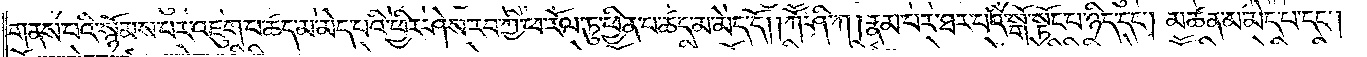གནས་པའི་སྙོམས་པར་འཇུག་པ་ཚད་མ་མེད་པའི་ཕྱིར་ཤེས་རབ་ཀྱི་ཕ་རོལ་ཏུ་ཕྱིན་པ་ཚད་མ་མེད་དོ། །ཀཽ་ཤི་ཀ །རྣམ་པར་ཐར་པའི་སྒོ་སྟོང་པ་ཉིད་དང༌། མཚན་མ་མེད་པ་དང༌།
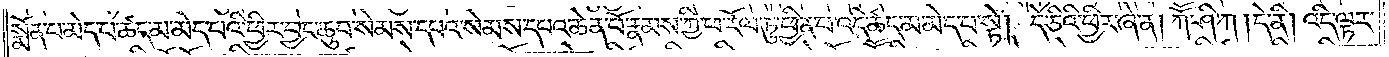སྨོན་པ་མེད་པ་ཚད་མ་མེད་པའི་ཕྱིར་བྱང་ཆུབ་སེམས་དཔའ་སེམས་དཔའ་ཆེན་པོ་རྣམས་ཀྱི་ཕ་རོལ་ཏུ་ཕྱིན་པ་འདི་ཚད་མ་མེད་པ་སྟེ། དེ་ཅིའི་ཕྱིར་ཞེ་ན། ཀཽ་ཤི་ཀ །དེ་ནི། འདི་ལྟར་
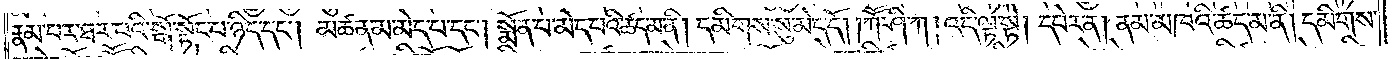རྣམ་པར་ཐར་པའི་སྒོ་སྟོང་པ་ཉིད་དང༌། མཚན་མ་མེད་པ་དང༌། སྨོན་པ་མེད་པའི་ཚད་མ་ནི། དམིགས་སུ་མེད་དོ། །ཀཽ་ཤི་ཀ །འདི་ལྟ་སྟེ། དཔེར་ན། ནམ་མཁའི་ཚད་མ་ནི། དམིགས་
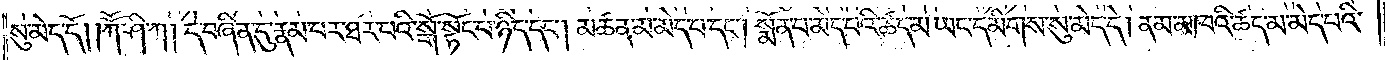སུ་མེད་དོ། །ཀཽ་ཤི་ཀ །དེ་བཞིན་དུ་རྣམ་པར་ཐར་པའི་སྒོ་སྟོང་པ་ཉིད་དང༌། མཚན་མ་མེད་པ་དང༌། སྨོན་པ་མེད་པའི་ཚད་མ་ཡང་དམིགས་སུ་མེད་དེ། ནམ་མཁའི་ཚད་མ་མེད་པའི་
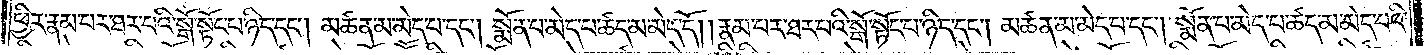ཕྱིར་རྣམ་པར་ཐར་པའི་སྒོ་སྟོང་པ་ཉིད་དང༌། །མཚན་མ་མེད་པ་དང༌། སྨོན་པ་མེད་པ་ཚད་མ་མེད་དོ། །རྣམ་པར་ཐར་པའི་སྒོ་སྟོང་པ་ཉིད་དང༌། མཚན་མ་མེད་པ་དང༌། སྨོན་པ་མེད་པ་ཚད་མ་མེད་པའི་
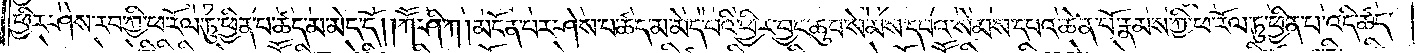ཕྱིར་ཤེས་རབ་ཀྱི་ཕ་རོལ་ཏུ་ཕྱིན་པ་ཚད་མ་མེད་དོ། །ཀཽ་ཤི་ཀ །མངོན་པར་ཤེས་པ་ཚད་མ་མེད་པའི་ཕྱིར་བྱང་ཆུབ་སེམས་དཔའ་སེམས་དཔའ་ཆེན་པོ་རྣམས་ཀྱི་ཕ་རོལ་ཏུ་ཕྱིན་པ་འདི་ཚད་
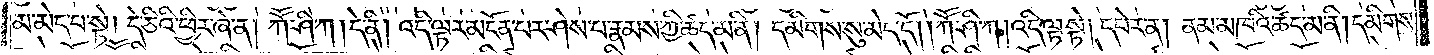མ་མེད་པ་སྟེ། དེ་ཅིའི་ཕྱིར་ཞེ་ན། ཀཽ་ཤི་ཀ །དེ་ནི། འདི་ལྟར་མངོན་པར་ཤེས་པ་རྣམས་ཀྱི་ཚད་མ་ནི། དམིགས་སུ་མེད་དོ། །ཀཽ་ཤི་ཀ །འདི་ལྟ་སྟེ། དཔེར་ན། ནམ་མཁའི་ཚད་མ་ནི། དམིགས་
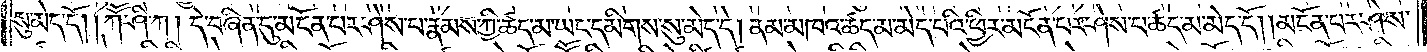སུ་མེད་དོ། །ཀཽ་ཤི་ཀ །དེ་བཞིན་དུ་མངོན་པར་ཤེས་པ་རྣམས་ཀྱི་ཚད་མ་ཡང་དམིགས་སུ་མེད་དེ། ནམ་མཁའ་ཚད་མ་མེད་པའི་ཕྱིར་མངོན་པར་ཤེས་པ་ཚད་མ་མེད་དོ། །མངོན་པར་ཤེས་
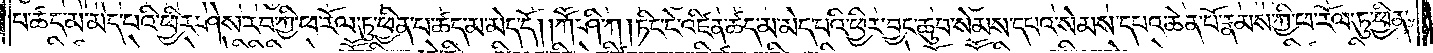པ་ཚད་མ་མེད་པའི་ཕྱིར་ཤེས་རབ་ཀྱི་ཕ་རོལ་ཏུ་ཕྱིན་པ་ཚད་མ་མེད་དོ། །ཀཽ་ཤི་ཀ །ཏིང་ངེ་འཛིན་ཚད་མ་མེད་པའི་ཕྱིར་བྱང་ཆུབ་སེམས་དཔའ་སེམས་དཔའ་ཆེན་པོ་རྣམས་ཀྱི་ཕ་རོལ་ཏུ་ཕྱིན་
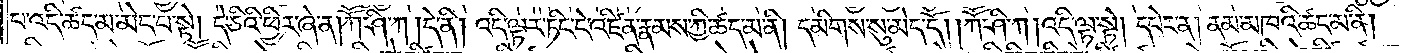པ་འདི་ཚད་མ་མེད་པ་སྟེ། དེ་ཅིའི་ཕྱིར་ཞེ་ན། ཀཽ་ཤི་ཀ །དེ་ནི། འདི་ལྟར་ཏིང་ངེ་འཛིན་རྣམས་ཀྱི་ཚད་མ་ནི། དམིགས་སུ་མེད་དོ། །ཀཽ་ཤི་ཀ །འདི་ལྟ་སྟེ། དཔེར་ན། ནམ་མཁའི་ཚད་མ་ནི།
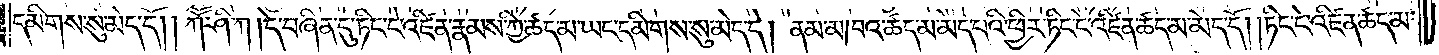དམིགས་སུ་མེད་དོ། །ཀཽ་ཤི་ཀ །དེ་བཞིན་དུ་ཏིང་ངེ་འཛིན་རྣམས་ཀྱི་ཚད་མ་ཡང་དམིགས་སུ་མེད་དེ། ནམ་མཁའ་ཚད་མ་མེད་པའི་ཕྱིར་ཏིང་ངེ་འཛིན་ཚད་མ་མེད་དོ། །ཏིང་ངེ་འཛིན་ཚད་མ་
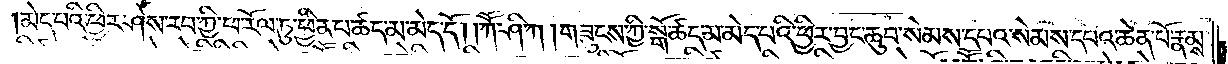མེད་པའི་ཕྱིར་ཤེས་རབ་ཀྱི་ཕ་རོལ་ཏུ་ཕྱིན་པ་ཚད་མ་མེད་དོ། །ཀཽ་ཤི་ཀ །གཟུངས་ཀྱི་སྒོ་ཚད་མ་མེད་པའི་ཕྱིར་བྱང་ཆུབ་སེམས་དཔའ་སེམས་དཔའ་ཆེན་པོ་རྣམས་
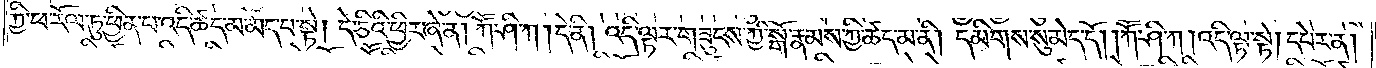ཀྱི་ཕ་རོལ་ཏུ་ཕྱིན་པ་འདི་ཚད་མ་མེད་པ་སྟེ། དེ་ཅིའི་ཕྱིར་ཞེ་ན། ཀཽ་ཤི་ཀ །དེ་ནི། འདི་ལྟར་གཟུངས་ཀྱི་སྒོ་རྣམས་ཀྱི་ཚད་མ་ནི། དམིགས་སུ་མེད་དོ། །ཀཽ་ཤི་ཀ །འདི་ལྟ་སྟེ། དཔེར་ན།
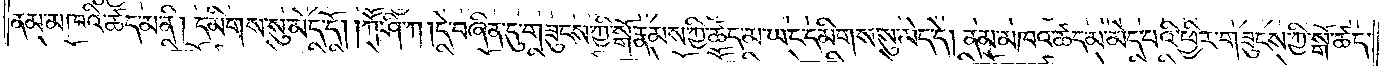ནམ་མཁའི་ཚད་མ་ནི། དམིགས་སུ་མེད་དོ། །ཀཽ་ཤི་ཀ །དེ་བཞིན་དུ་གཟུངས་ཀྱི་སྒོ་རྣམས་ཀྱི་ཚད་མ་ཡང་དམིགས་སུ་མེད་དེ། ནམ་མཁའ་ཚད་མ་མེད་པའི་ཕྱིར་གཟུངས་ཀྱི་སྒོ་ཚད་
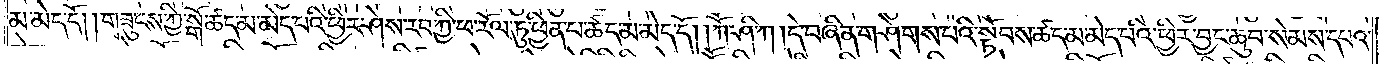མ་མེད་དོ། །གཟུངས་ཀྱི་སྒོ་ཚད་མ་མེད་པའི་ཕྱིར་ཤེས་རབ་ཀྱི་ཕ་རོལ་ཏུ་ཕྱིན་པ་ཚད་མ་མེད་དོ། །ཀཽ་ཤི་ཀ །དེ་བཞིན་གཤེགས་པའི་སྟོབས་ཚད་མ་མེད་པའི་ཕྱིར་བྱང་ཆུབ་སེམས་དཔའ་
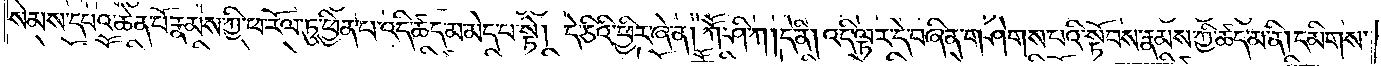སེམས་དཔའ་ཆེན་པོ་རྣམས་ཀྱི་ཕ་རོལ་ཏུ་ཕྱིན་པ་འདི་ཚད་མ་མེད་པ་སྟེ། དེ་ཅིའི་ཕྱིར་ཞེ་ན། ཀཽ་ཤི་ཀ །དེ་ནི། འདི་ལྟར་དེ་བཞིན་གཤེགས་པའི་སྟོབས་རྣམས་ཀྱི་ཚད་མ་ནི། དམིགས་
